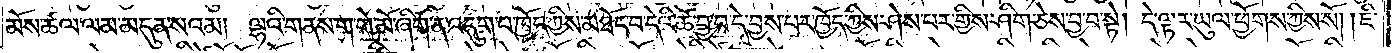མོས་ཚལ་ལམ་མདུན་སའམ། ལྷའི་གནས་ག་གེ་མོ་ཞིག་ན་འདུག་པ་ཁྱོད་ཀྱིས་མཐོང་བ་དེའི་ཚེ་བྱ་བ་དེ་བྱས་པར་ཁྱོད་ཀྱིས་ཤེས་པར་གྱིས་ཤིག་ཅེས་བྱ་བ་སྟེ། དེ་ལྟར་ཡུལ་ཕྱོགས་ཀྱིས་སོ། །ཇི་
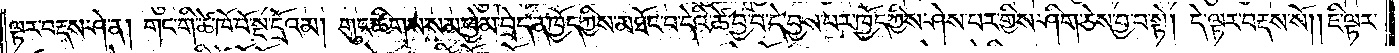ལྟར་བརྡས་ཤེ་ན། གང་གི་ཚེ་ཁོ་བོ་སྔ་དྲོའམ། གུང་ཚིགས་སམ་ཕྱེམ་བྲེད་ན་ཁྱོད་ཀྱིས་མཐོང་བ་དེའི་ཚེ་བྱ་བ་དེ་བྱས་པར་ཁྱོད་ཀྱིས་ཤེས་པར་གྱིས་ཤིག་ཅེས་བྱ་བ་སྟེ། དེ་ལྟར་བརྡས་སོ། །ཇི་ལྟར་
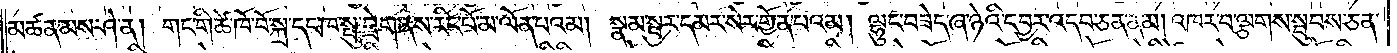མཚན་མས་ཤེ་ན། གང་གི་ཚེ་ཁོ་བོ་སྐྲ་དང་ཁ་སྤུ་བྲེག་ནས་རིང་པོ་མ་ལོན་པའམ། སྣམ་སྦྱར་དམར་སེར་གྱོན་པའམ། ལྷུང་བཟེད་ཞ་ཉེའི་དབྱར་འདབ་ཅན་ནམ། འཁར་བ་ལྕགས་སྦུབས་ཅན་
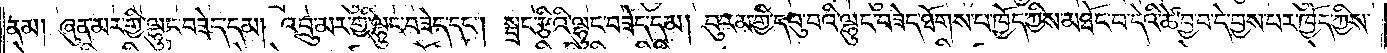ནམ། ཞུན་མར་གྱི་ལྷུང་བཟེད་དམ། འབྲུ་མར་གྱི་ལྷུང་བཟེད་དང༌། སྦྲང་རྩིའི་ལྷུང་བཟེད་དམ། བུ་རམ་གྱི་དབུ་པའི་ལྷུང་བཟེད་ཐོགས་པ་ཁྱོད་ཀྱིས་མཐོང་བ་དེའི་ཚེ་བྱ་བ་དེ་བྱས་པར་ཁྱོད་ཀྱིས་
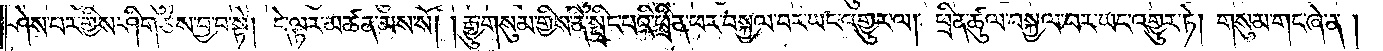ཤེས་པར་གྱིས་ཤིག་ཅེས་བྱ་བ་སྟེ། དེ་ལྟར་མཚན་མས་སོ། །རྒྱུ་གསུམ་གྱིས་ནི་སྤྲིང་པའི་ཕྲིན་ཕར་བསྐྱལ་བར་ཡང་འགྱུར་ལ། ཕྲིན་ཚུལ་བསྐྱལ་བར་ཡང་འགྱུར་ཏེ། གསུམ་གང་ཞེ་ན།
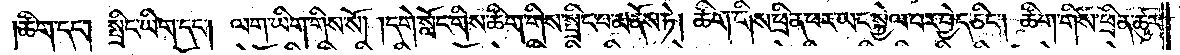ཚིག་དང༌། སྤྲིང་ཡིག་དང༌། ལག་ཡིག་གིས་སོ། །དགེ་སློང་གིས་ཚིག་གིས་སྤྲིང་པ་མནོས་ཏེ། ཚིག་གིས་ཕྲིན་ཕར་ཡང་སྐྱེལ་བར་བྱེད་ཅིང༌། ཚིག་གིས་ཕྲིན་ཚུར་
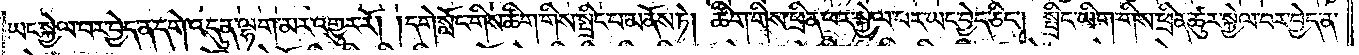ཡང་སྐྱེལ་བར་བྱེད་ན་དགེ་འདུན་ལྷག་མར་འགྱུར་རོ། །དགེ་སློང་གིས་ཚིག་གིས་སྤྲིང་པ་མནོས་ཏེ། ཚིག་གིས་ཕྲིན་ཕར་སྐྱེལ་བར་ཡང་བྱེད་ཅིང༌། སྤྲིང་ཡིག་གིས་ཕྲིན་ཚུར་སྐྱེལ་བར་བྱེད་ན་
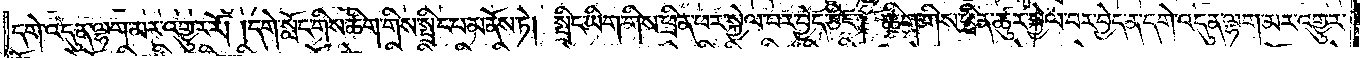དགེ་འདུན་ལྷག་མར་འགྱུར་རོ། །དགེ་སློང་གིས་ཚིག་གིས་སྤྲིང་པ་མནོས་ཏེ། སྤྲིང་ཡིག་གིས་ཕྲིན་ཕར་སྐྱེལ་བར་བྱེད་ཅིང༌། ཚིག་གིས་ཕྲིན་ཚུར་སྐྱེལ་བར་བྱེད་ན་དགེ་འདུན་ལྷག་མར་འགྱུར་
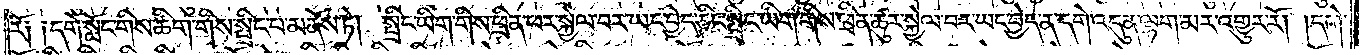རོ༑ ༑དགེ་སློང་གིས་ཚིག་གིས་སྤྲིང་པ་མནོས་ཏེ། སྤྲིང་ཡིག་གིས་ཕྲིན་ཕར་སྐྱེལ་བར་ཡང་བྱེད་ཅིང་སྤྲིང་ཡིག་གིས་ཕྲིན་ཚུར་སྐྱེལ་བར་ཡང་བྱེད་ན་དགེ་འདུན་ལྷག་མར་འགྱུར་རོ། །དགེ་
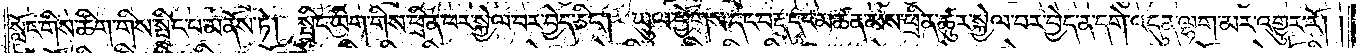སློང་གིས་ཚིག་གིས་སྤྲིང་པ་མནོས་ཏེ། སྤྲིང་ཡིག་གིས་ཕྲིན་ཕར་སྐྱེལ་བར་བྱེད་ཅིང༌། ཡུལ་ཕྱོགས་དང་བརྡ་དང་མཚན་མས་ཕྲིན་ཚུར་སྐྱེལ་བར་བྱེད་ན་དགེ་འདུན་ལྷག་མར་འགྱུར་རོ། །
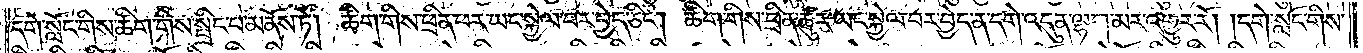དགེ་སློང་གིས་ཚིག་གིས་སྤྲིང་པ་མནོས་ཏེ། ཚིག་གིས་ཕྲིན་ཕར་ཡང་སྐྱེལ་བར་བྱེད་ཅིང༌།    ཚིག་གིས་ཕྲིན་ཚུར་ཡང་སྐྱེལ་བར་བྱེད་ན་དགེ་འདུན་ལྷག་མར་འགྱུར་རོ། །དགེ་སློང་གིས་
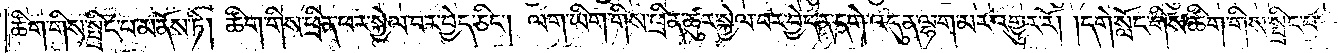ཚིག་གིས་སྤྲིང་པ་མནོས་ཏེ། ཚིག་གིས་ཕྲིན་ཕར་སྐྱེལ་བར་བྱེད་ཅིང༌། ལག་ཡིག་གིས་ཕྲིན་ཚུར་སྐྱེལ་བར་བྱེད་ན་དགེ་འདུན་ལྷག་མར་འགྱུར་རོ། །དགེ་སློང་གིས་ཚིག་གིས་སྤྲིང་པ་
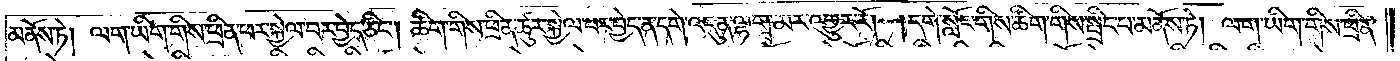མནོས་ཏེ། ལག་ཡིག་གིས་ཕྲིན་ཕར་སྐྱེལ་བར་བྱེད་ཅིང༌། ཚིག་གིས་ཕྲིན་ཚུར་སྐྱེལ་བར་བྱེད་ན་དགེ་འདུན་ལྷག་མར་འགྱུར་རོ། །དགེ་སློང་གིས་ཚིག་གིས་སྤྲིང་པ་མནོས་ཏེ། ལག་ཡིག་གིས་ཕྲིན་
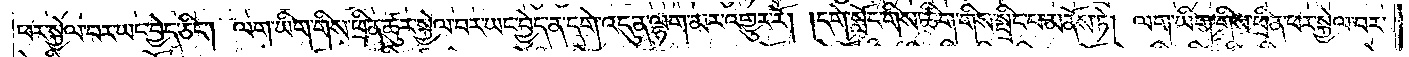ཕར་སྐྱེལ་བར་ཡང་བྱེད་ཅིང༌། ལག་ཡིག་གིས་ཕྲིན་ཚུར་སྐྱེལ་བར་ཡང་བྱེད་ན་དགེ་འདུན་ལྷག་མར་འགྱུར་རོ། །དགེ་སློང་གིས་ཚིག་གིས་སྤྲིང་པ་མནོས་ཏེ། ལག་ཡིག་གིས་ཕྲིན་ཕར་སྐྱེལ་བར་
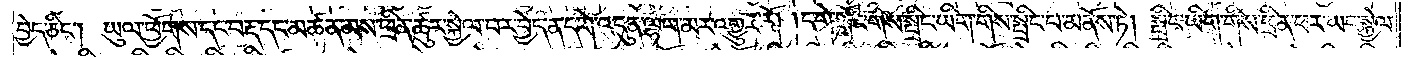བྱེད་ཅིང༌། ཡུལ་ཕྱོགས་དང་བརྡ་དང་མཚན་མས་ཕྲིན་ཚུར་སྐྱེལ་བར་བྱེད་ན་དགེ་འདུན་ལྷག་མར་འགྱུར་རོ། །དགེ་སློང་གིས་སྤྲིང་ཡིག་གིས་སྤྲིང་པ་མནོས་ཏེ། སྤྲིང་ཡིག་གིས་ཕྲིན་ཕར་ཡང་སྐྱེལ་
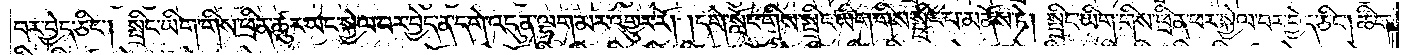བར་བྱེད་ཅིང༌། སྤྲིང་ཡིག་གིས་ཕྲིན་ཚུར་ཡང་སྐྱེལ་བར་བྱེད་ན་དགེ་འདུན་ལྷག་མར་འགྱུར་རོ། །དགེ་སློང་གིས་སྤྲིང་ཡིག་གིས་སྤྲིང་པ་མནོས་ཏེ། སྤྲིང་ཡིག་གིས་ཕྲིན་ཕར་སྐྱེལ་བར་བྱེད་ཅིང༌། ཚིག་
